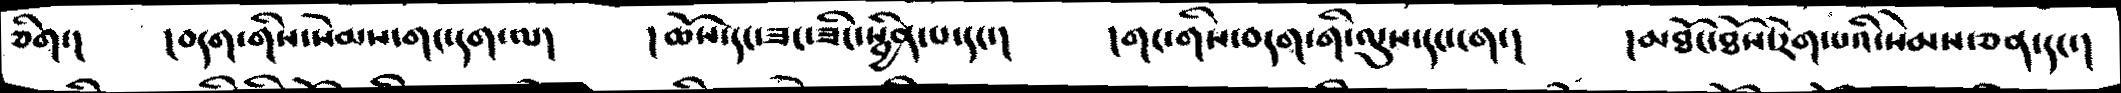ཅིག་།     །བདག་གིས་སེམས་གང་དག་ལ།      །ཆོས་དང་ཟང་ཟིང་སྦྱིན་པ་དང་།     །གང་གིས་བདག་གི་ལུས་དང་ངག་།      །མཐོང་ཐོས་རེག་པའི་སེམས་ཅན་དང་།
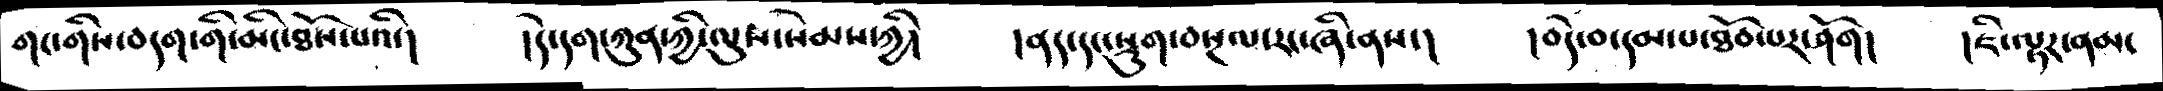གང་གིས་བདག་གི་མིང་ཐོས་པའི་།     །དེ་དག་ཀུན་ཀྱི་ལུས་སེམས་ཀྱི།     །ནད་དང་སྡུག་བསྔལ་རང་ཞི་ནས་།     །བདེ་བ་དམ་པ་ཐོབ་པར་ཤོག།     །ཇི་ལྟར་ནམ་
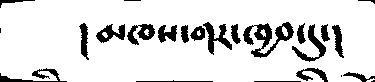།མཁས་གར་ཁྱབ་དུ་།
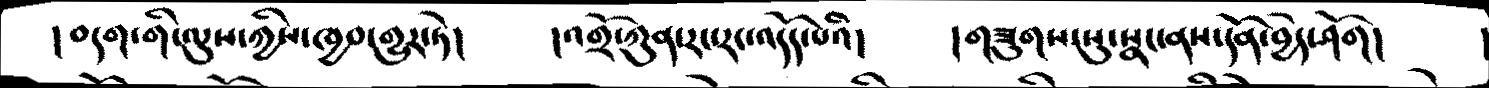།བདག་གི་ལུས་ཀྱིས་ཁྱབ་གྱུར་ཏེ།     །འགྲོ་ཀུན་རང་རང་འདོད་པའི།      །གཟུགས་སུ་སྣང་ནས་དོན་བྱེད་ཤོག།     །
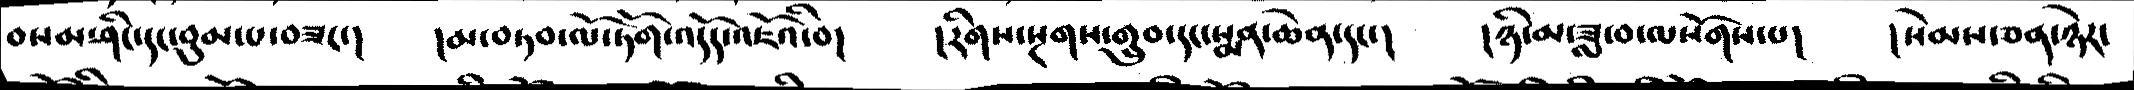བསམ་ཤིང་དང་བུམ་པ་བཟང་།   །མ་བཏབ་ལོ་ཏོག་འདོད་འཇོའི་བ།     །རིགས་སྔགས་གྲུབ་དང་སྨན་ཆེན་དང་།     །ཉི་མ་ཟླ་བ་ལསོགས་པ།    །སེམས་ཅན་ཉེར་
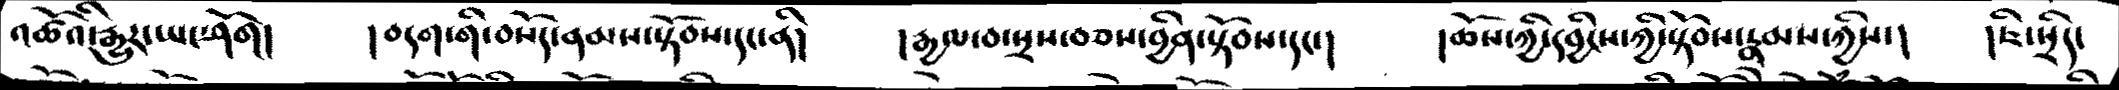འཚོའི་རྒྱུར་ཡང་ཤོག།    །བདག་གི་བསོད་ནམས་སྟོབས་དང་ནི།    །རྒྱལ་བ་སྲས་བཅས་བྱིན་སྟོབས་དང་།     །ཆོས་ཀྱི་དབྱིངས་ཀྱི་སྟོབས་རྣམས་ཀྱིས་།    །ཇི་སྲིད་
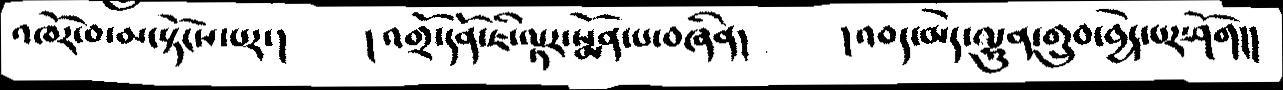འཁོར་བ་མ་སྟོངས་པར་།    །འགྲོ་དོན་ཇི་ལྟར་སྨོན་པ་བཞིན།     །འབད་མེད་ལྷུན་གྲུབ་བྱེད་པར་ཤོག།།
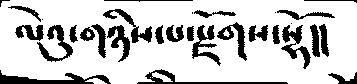ལེའུ་གཉིས་པ་རྫོགས་སྷོ།།
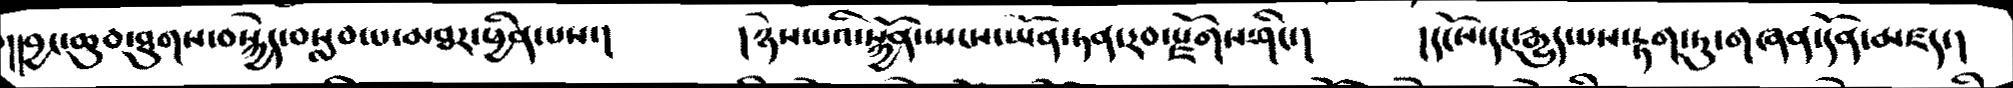།།བྱང་ཆུབ་ཐུགས་བསྐྱེད་བསླབ་པ་མཐར་ཕྱིན་པས་།    །ཉེས་པའི་སྐྱོན་སྤངས་ཡོན་ཏན་རབ་རྫོགས་ཤིང་།    །དངོས་དང་རྒྱུད་པས་རྟག་ཏུ་གཞན་དོན་མཛད།
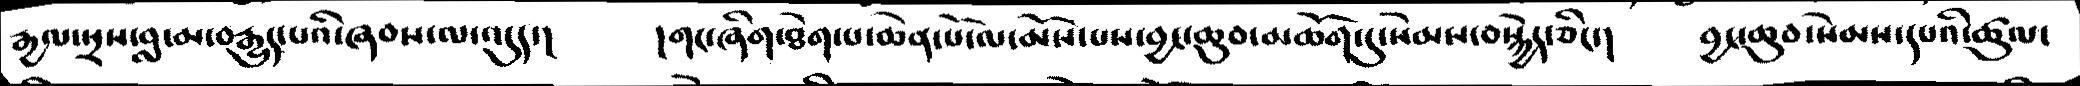རྒྱལ་སྲས་བླ་མ་བརྒྱུད་པའི་ཞབས་ལ་འདུད་།    །གང་ཞིག་ཐེག་པ་ཆེན་པོ་ལ་མོས་པས་བྱང་ཆུབ་མཆོག་དུ་སེམས་བསྐྱེད་ཅིང་།    བྱང་ཆུབ་སེམས་དཔའི་ཚུལ་
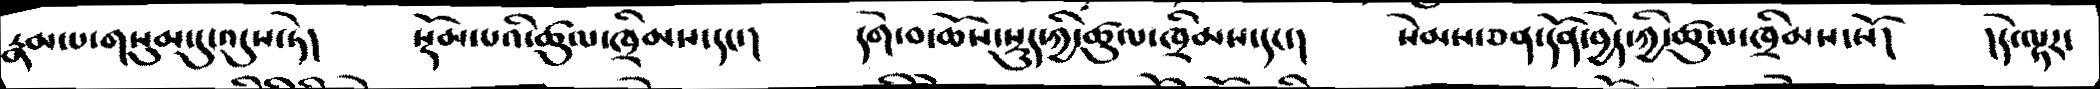རྣམ་པ་གསུམ་དུ་འདུས་ཏེ།   སྡོམ་པའི་ཚུལ་ཁྲིམས་དང་།   དགེ་བ་ཆོས་སྡུད་ཀྱི་ཚུལ་ཁྲིམས་དང་།   སེམས་ཅན་དོན་བྱེད་ཀྱི་ཚུལ་ཁྲིམས་སོ།   །དེ་ལྟར་
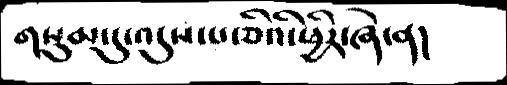གསུམ་དུ་འདུས་པ་ཅིའི་ཕྱིར་ཞེདན།
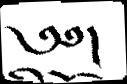༄༅།
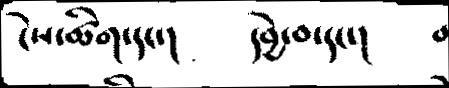ངེས་ཚིག་དང་།   དབྱེ་བ་དང་།  བ
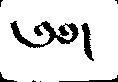༄༅།
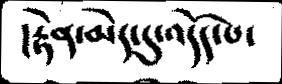།རྟེན་མེད་དུ་འདོད་པ་
